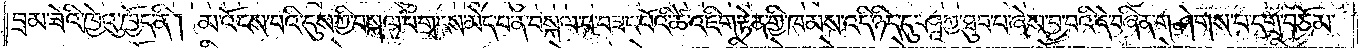བྲམ་ཟེའི་ཁྱེའུ་ཁྱོད་ནི། མ་འོངས་པའི་དུས་ཀྱི་བསྐལ་པ་གྲངས་མེད་པ་ན་བསྐལ་པ་བཟང་པོའི་ཚེ་འཇིག་རྟེན་གྱི་ཁམས་འདི་ཉིད་དུ་ཤཱཀྱ་ཐུབ་པ་ཞེས་བྱ་བའི་དེ་བཞིན་གཤེགས་པ་དགྲ་བཅོམ་
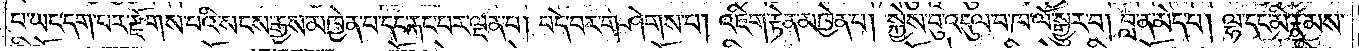པ་ཡང་དག་པར་རྫོགས་པའི་སངས་རྒྱས་མཁྱེན་པ་དང་རྐང་པར་ལྡན་པ། བདེ་བར་གཤེགས་པ། འཇིག་རྟེན་མཁྱེན་པ། སྐྱེས་བུ་འདུལ་བ་ཁ་ལོ་སྒྱུར་བ། བླ་ན་མེད་པ། ལྷ་དང་མི་རྣམས་
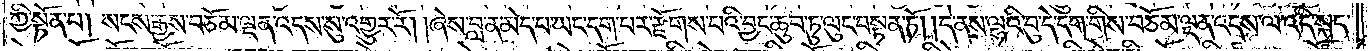ཀྱི་སྟོན་པ། སངས་རྒྱས་བཅོམ་ལྡན་འདས་སུ་འགྱུར་རོ། །ཞེས་བླ་ན་མེད་པ་ཡང་དག་པར་རྫོགས་པའི་བྱང་ཆུབ་ཏུ་ལུང་བསྟན་ཏོ། །དེ་ནས་ལྷའི་བུ་དེ་དག་གིས་བཅོམ་ལྡན་འདས་ལ་འདི་སྐད་
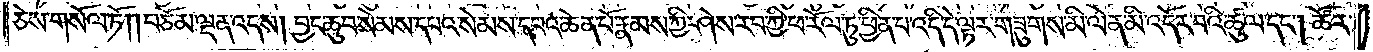ཅེས་གསོལ་ཏོ། །བཅོམ་ལྡན་འདས། བྱང་ཆུབ་སེམས་དཔའ་སེམས་དཔའ་ཆེན་པོ་རྣམས་ཀྱི་ཤེས་རབ་ཀྱི་ཕ་རོལ་ཏུ་ཕྱིན་པ་འདི་དེ་ལྟར་གཟུགས་མི་ལེན་མི་འདོར་བའི་ཚུལ་དང༌། ཚོར་
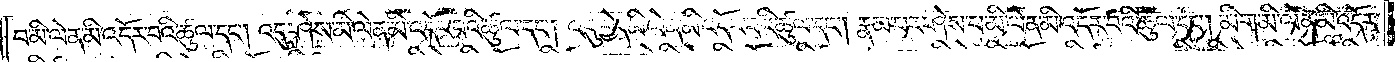བ་མི་ལེན་མི་འདོར་བའི་ཚུལ་དང༌། འདུ་ཤེས་མི་ལེན་མི་འདོར་བའི་ཚུལ་དང༌། འདུ་བྱེད་མི་ལེན་མི་འདོར་བའི་ཚུལ་དང༌། རྣམ་པར་ཤེས་པ་མི་ལེན་མི་འདོར་བའི་ཚུལ་དང༌། མིག་མི་ལེན་མི་འདོར་
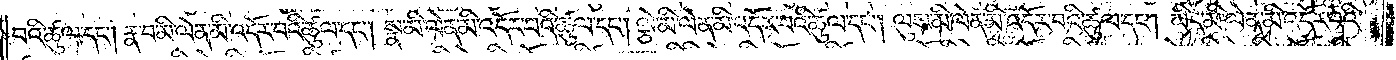བའི་ཚུལ་དང༌། རྣ་བ་མི་ལེན་མི་འདོར་བའི་ཚུལ་དང༌། སྣ་མི་ལེན་མི་འདོར་བའི་ཚུལ་དང༌། ལྕེ་མི་ལེན་མི་འདོར་བའི་ཚུལ་དང༌། ལུས་མི་ལེན་མི་འདོར་བའི་ཚུལ་དང༌། ཡིད་མི་ལེན་མི་འདོར་བའི་
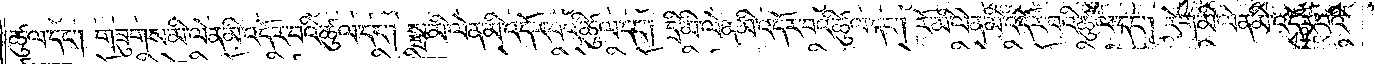ཚུལ་དང༌། གཟུགས་མི་ལེན་མི་འདོར་བའི་ཚུལ་དང༌། སྒྲ་མི་ལེན་མི་འདོར་བའི་ཚུལ་དང༌། དྲི་མི་ལེན་མི་འདོར་བའི་ཚུལ་དང༌། རོ་མི་ལེན་མི་འདོར་བའི་ཚུལ་དང༌། རེག་མི་ལེན་མི་འདོར་བའི་
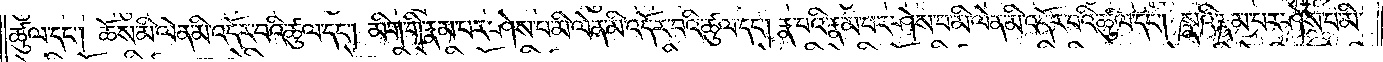ཚུལ་དང༌། ཆོས་མི་ལེན་མི་འདོར་བའི་ཚུལ་དང༌། མིག་གི་རྣམ་པར་ཤེས་པ་མི་ལེན་མི་འདོར་བའི་ཚུལ་དང༌། རྣ་བའི་རྣམ་པར་ཤེས་པ་མི་ལེན་མི་འདོར་བའི་ཚུལ་དང༌། སྣའི་རྣམ་པར་ཤེས་པ་མི་
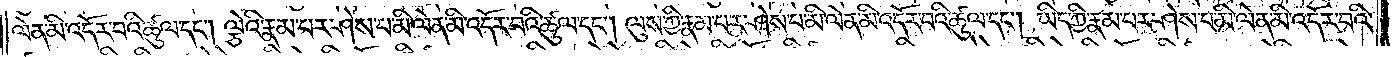ལེན་མི་འདོར་བའི་ཚུལ་དང༌། ལྕེའི་རྣམ་པར་ཤེས་པ་མི་ལེན་མི་འདོར་བའི་ཚུལ་དང༌། ལུས་ཀྱི་རྣམ་པར་ཤེས་པ་མི་ལེན་མི་འདོར་བའི་ཚུལ་དང༌། ཡིད་ཀྱི་རྣམ་པར་ཤེས་པ་མི་ལེན་མི་འདོར་བའི་
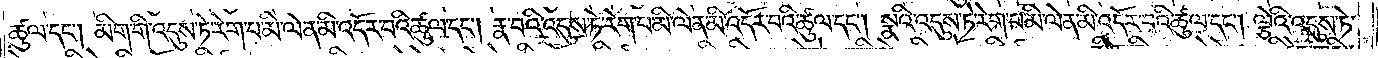ཚུལ་དང༌། མིག་གི་འདུས་ཏེ་རེག་པ་མི་ལེན་མི་འདོར་བའི་ཚུལ་དང༌། རྣ་བའི་འདུས་ཏེ་རེག་པ་མི་ལེན་མི་འདོར་བའི་ཚུལ་དང༌། སྣའི་འདུས་ཏེ་རེག་པ་མི་ལེན་མི་འདོར་བའི་ཚུལ་དང༌། ལྕེའི་འདུས་ཏེ་
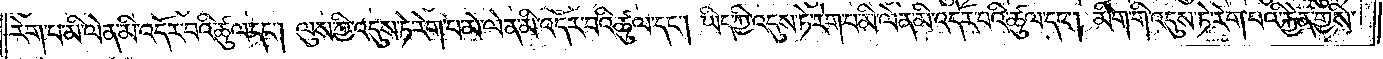རེག་པ་མི་ལེན་མི་འདོར་བའི་ཚུལ་དང༌། ལུས་ཀྱི་འདུས་ཏེ་རེག་པ་མི་ལེན་མི་འདོར་བའི་ཚུལ་དང༌། ཡིད་ཀྱི་འདུས་ཏེ་རེག་པ་མི་ལེན་མི་འདོར་བའི་ཚུལ་དང༌། མིག་གི་འདུས་ཏེ་རེག་པའི་རྐྱེན་གྱིས་
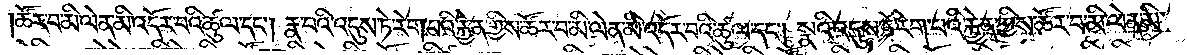ཚོར་བ་མི་ལེན་མི་འདོར་བའི་ཚུལ་དང༌། རྣ་བའི་འདུས་ཏེ་རེག་པའི་རྐྱེན་གྱིས་ཚོར་བ་མི་ལེན་མི་འདོར་བའི་ཚུལ་དང༌། སྣའི་འདུས་ཏེ་རེག་པའི་རྐྱེན་གྱིས་ཚོར་བ་མི་ལེན་མི་
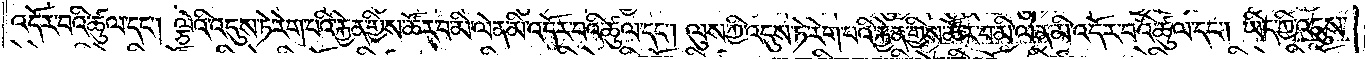འདོར་བའི་ཚུལ་དང༌། ལྕེའི་འདུས་ཏེ་རེག་པའི་རྐྱེན་གྱིས་ཚོར་བ་མི་ལེན་མི་འདོར་བའི་ཚུལ་དང༌། ལུས་ཀྱི་འདུས་ཏེ་རེག་པའི་རྐྱེན་གྱིས་ཚོར་བ་མི་ལེན་མི་འདོར་བའི་ཚུལ་དང༌། ཡིད་ཀྱི་འདུས་
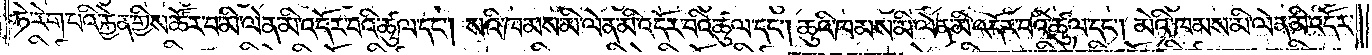ཏེ་རེག་པའི་རྐྱེན་གྱིས་ཚོར་བ་མི་ལེན་མི་འདོར་བའི་ཚུལ་དང༌། སའི་ཁམས་མི་ལེན་མི་འདོར་བའི་ཚུལ་དང༌། ཆུའི་ཁམས་མི་ལེན་མི་འདོར་བའི་ཚུལ་དང༌། མེའི་ཁམས་མི་ལེན་མི་འདོར་
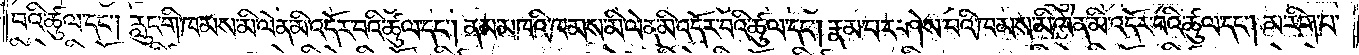བའི་ཚུལ་དང༌། རླུང་གི་ཁམས་མི་ལེན་མི་འདོར་བའི་ཚུལ་དང༌། ནམ་མཁའི་ཁམས་མི་ལེན་མི་འདོར་བའི་ཚུལ་དང༌། རྣམ་པར་ཤེས་པའི་ཁམས་མི་ལེན་མི་འདོར་བའི་ཚུལ་དང༌། མ་རིག་པ་
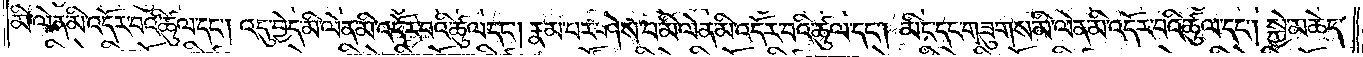མི་ལེན་མི་འདོར་བའི་ཚུལ་དང༌། འདུ་བྱེད་མི་ལེན་མི་འདོར་བའི་ཚུལ་དང༌། རྣམ་པར་ཤེས་པ་མི་ལེན་མི་འདོར་བའི་ཚུལ་དང༌། མིང་དང་གཟུགས་མི་ལེན་མི་འདོར་བའི་ཚུལ་དང༌། སྐྱེ་མཆེད་
